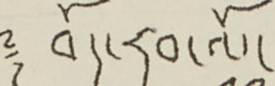༈ བོད་རབ་ལོ་
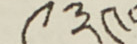༩༣༤
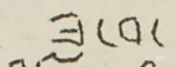ཟླ་བ་
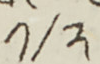༡/༢
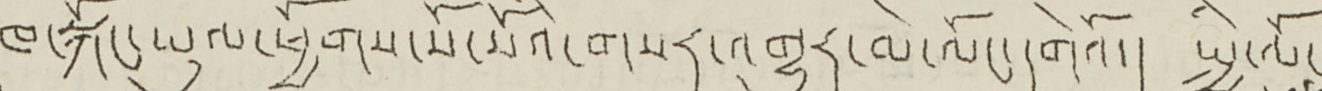ཁ་སྐོང་ཡུལ་ཕྱོགས་སོ་སོའི་གསར་འགྱུར་མེ་ལོང་གི་དགེའོ། སྤྱི་ལོ་
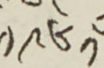༡༩༦༡
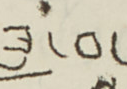ཟླ་བ་
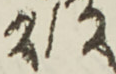༢/༣
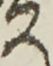༣
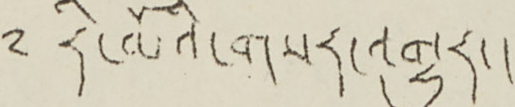༈ རི་མོའི་གསར་འགྱུར།
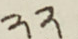༢༢
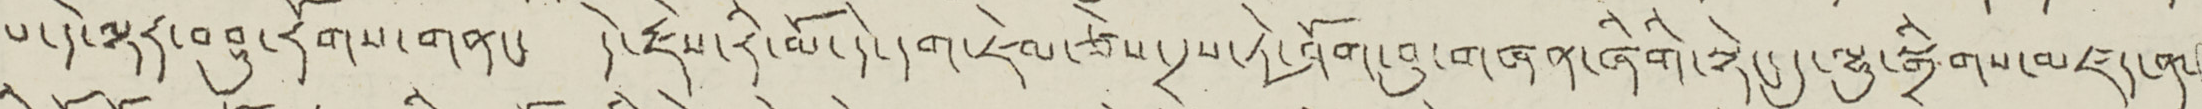པ་དེ་ལྟར་བཤུ་རོགས་གནང་ དེ་རྗེས་རི་མོ་དེ་དག་ཇེལ་ཙེས་དྲས་ཏེ་ཤོག་བུ་གཞན་ཞིགི་སྟེང་དུ་ལྷུན་སྒྲིགས་མཛད་ན་
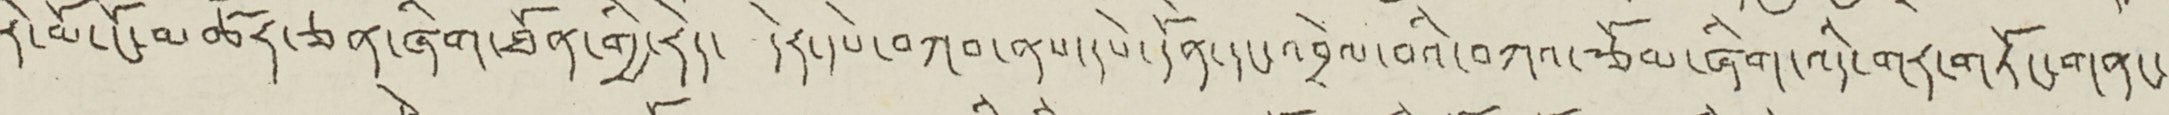རི་མོ་ངོ་མཚར་ཅན་ཞིག་ཐོན་གྱི་རེད་ དེར་དཔེ་བཀབ་ནས་དཔེ་དོན་དང་འབྲེལ་བའི་བཀའ་རྩོམ་ཞིག་འདི་གར་གཏོང་གནང་
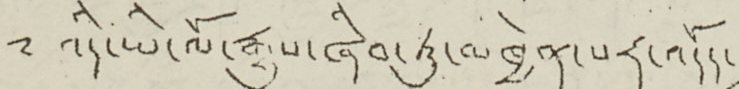༈ འདི་ཡི་ལོ་རྒྱུས་ཞིབ་ཏུ་མཁྱེན་པར་འདོད་
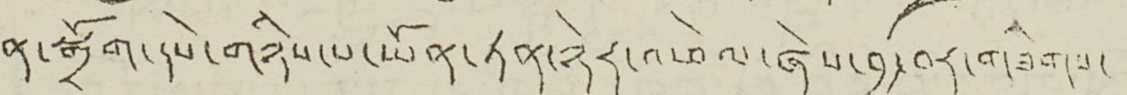ན་སྒྲོག་དཔེ་གཉིས་པ་ཡོན་ཏན་ཉེར་འཕེལ་ཞེས་བྱ་བར་གཟིགས་
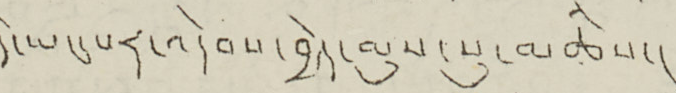དེ་ཡང་པར་འདེབས་བྱེད་མུས་སུ་མཆིས།
